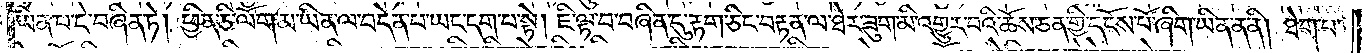ཡིན་པ་དེ་བཞིན་ཏེ། ཕྱིན་ཅི་ལོག་མ་ཡིན་ལ་བདེན་པ་ཡང་དག་པ་སྟེ། ཇི་ལྟ་བ་བཞིན་དུ་རྟག་ཅིང་བརྟན་ལ་ཐེར་ཟུག་མི་འགྱུར་བའི་ཆོས་ཅན་གྱི་དངོས་པོ་ཞིག་ཡིན་ན་ནི། ཐེག་པ་
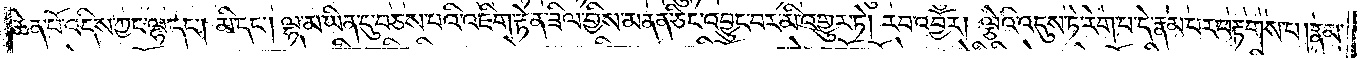ཆེན་པོ་འདིས་ཀྱང་ལྷ་དང༌། མི་དང༌། ལྷ་མ་ཡིན་དུ་བཅས་པའི་འཇིག་རྟེན་ཟིལ་གྱིས་མནན་ཅིང་འབྱུང་བར་མི་འགྱུར་ཏེ། རབ་འབྱོར། ལྕེའི་འདུས་ཏེ་རེག་པ་དེ་རྣམ་པར་བརྟགས་པ། རྣམ་
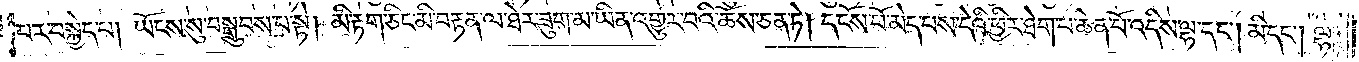པར་བསྐྱེད་པ། ཡོངས་སུ་བསྒྲུབས་པ་སྟེ། མི་རྟག་ཅིང་མི་བརྟན་ལ་ཐེར་ཟུག་མ་ཡིན་འགྱུར་པའི་ཆོས་ཅན་ཏེ་དངོས་པོ་མེད་པས་དེའི་ཕྱིར་ཐེག་པ་ཆེན་པོ་འདིས་ལྷ་དང༌། མི་དང༌། ལྷ་
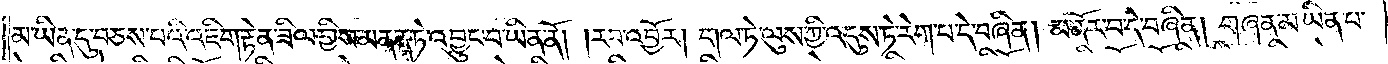མ་ཡིན་དུ་བཅས་པའི་འཇིག་རྟེན་ཟིལ་གྱིས་མནན་ཏེ་འབྱུང་བ་ཡིན་ནོ། །རབ་འབྱོར། གལ་ཏེ་ལུས་ཀྱི་འདུས་ཏེ་རེག་པ་དེ་བཞིན། མ་ནོར་བ་དེ་བཞིན། གཞན་མ་ཡིན་པ་
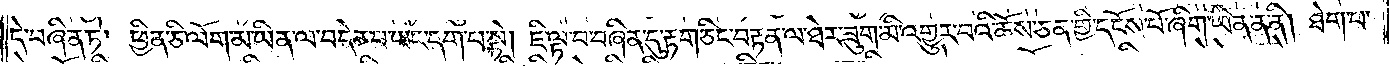དེ་བཞིན་ཏེ། ཕྱིན་ཅི་ལོག་མ་ཡིན་ལ་བདེན་པ་ཡང་དག་པ་སྟེ། ཇི་ལྟ་བ་བཞིན་དུ་རྟག་ཅིང་བརྟན་ལ་ཐེར་ཟུག་མི་འགྱུར་བའི་ཆོས་ཅན་གྱི་དངོས་པོ་ཞིག་ཡིན་ན་ནི། ཐེག་པ་
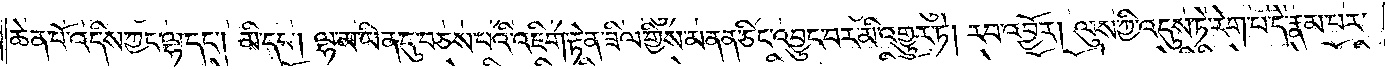ཆེན་པོ་འདིས་ཀྱང་ལྷ་དང༌། མི་དང༌། ལྷ་མ་ཡིན་དུ་བཅས་པའི་འཇིག་རྟེན་ཟིལ་གྱིས་མནན་ཅིང་འབྱུང་བར་མི་འགྱུར་ཏེ། རབ་འབྱོར། ལུས་ཀྱི་འདུས་ཏེ་རེག་པ་དེ་རྣམ་པར་
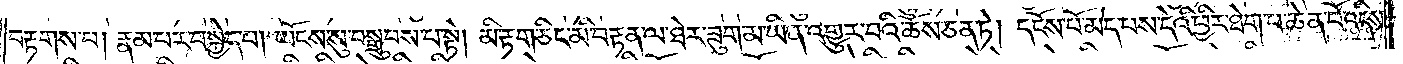བརྟགས་པ། རྣམ་པར་བསྐྱེད་པ། ཡོངས་སུ་བསྒྲུབས་པ་སྟེ། མི་རྟག་ཅིང་མི་བརྟན་ལ་ཐེར་ཟུག་མ་ཡིན་འགྱུར་བའི་ཆོས་ཅན་ཏེ། དངོས་པོ་མེད་པས་དེའི་ཕྱིར་ཐེག་པ་ཆེན་པོ་འདིས་
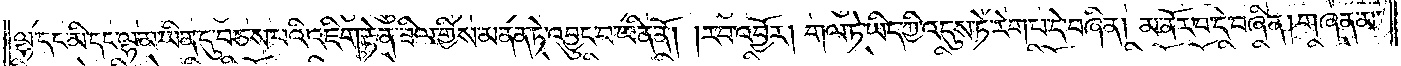ལྷ་དང་མི་དང་ལྷ་མ་ཡིན་དུ་བཅས་པའི་འཇིག་རྟེན་ཟིལ་གྱིས་མནན་ཏེ་འབྱུང་བ་ཡིན་ནོ། །རབ་འབྱོར། གལ་ཏེ་ཡིད་ཀྱི་འདུས་ཏེ་རེག་པར་དེ་བཞིན། མ་ནོར་བ་དེ་བཞིན། གཞན་མ་
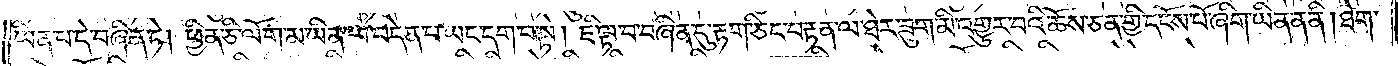ཡིན་པ་དེ་བཞིན་ཏེ། ཕྱིན་ཅི་ལོག་མ་ཡིན་ལ་བདེན་པ་ཡང་དག་པ་སྟེ། ཇི་ལྟ་བ་བཞིན་དུ་རྟག་ཅིང་བརྟན་ལ་ཐེར་ཟུག་མི་འགྱུར་བའི་ཆོས་ཅན་གྱི་དངོས་པོ་ཞིག་ཡིན་ན་ནི། ཐེག་
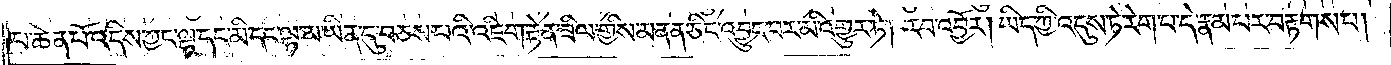པ་ཆེན་པོ་འདིས་ཀྱང་ལྷ་དང་མི་དང་ལྷ་མ་ཡིན་དུ་བཅས་པའི་འཇིག་རྟེན་ཟིལ་གྱིས་མནན་ཅིང་འབྱུང་བར་མི་འགྱུར་ཏེ། རབ་འབྱོར། ཡིད་ཀྱི་འདུས་ཏེ་རེག་པ་དེ་རྣམ་པར་བརྟགས་པ།
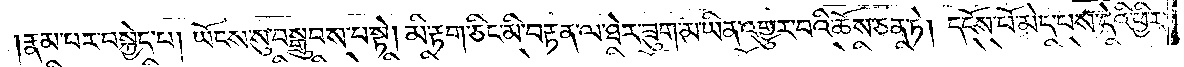རྣམ་པར་བསྐྱེད་པ། ཡོངས་སུ་བསྒྲུབས་པ་སྟེ། མི་རྟག་ཅིང་མི་བརྟན་ལ་ཐེར་ཟུག་མ་ཡིན་འགྱུར་བའི་ཆོས་ཅན་ཏེ། དངོས་པོ་མེད་པས་དེའི་ཕྱིར་
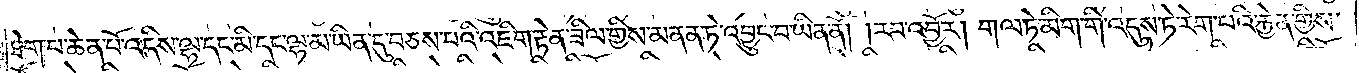ཐེག་པ་ཆེན་པོ་འདིས་ལྷ་དང་མི་དང་ལྷ་མ་ཡིན་དུ་བཅས་པའི་འཇིག་རྟེན་ཟིལ་གྱིས་མནན་ཏེ་འབྱུང་བ་ཡིན་ནོ། །རབ་འབྱོར། གལ་ཏེ་མིག་གི་འདུས་ཏེ་རེག་པའི་རྐྱེན་གྱིས་
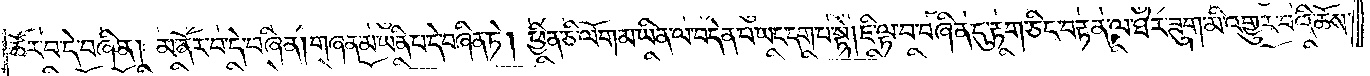ཚོར་བ་དེ་བཞིན། མ་ནོར་བ་དེ་བཞིན། གཞན་མ་ཡིན་པ་དེ་བཞིན་ཏེ། ཕྱིན་ཅི་ལོག་མ་ཡིན་ལ་བདེན་པ་ཡང་དག་པ་སྟེ། ཇི་ལྟ་བ་བཞིན་དུ་རྟག་ཅིང་བརྟན་ལ་ཐེར་ཟུག་མི་འགྱུར་བའི་ཆོས་
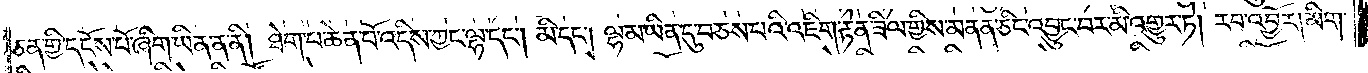ཅན་གྱི་དངོས་པོ་ཞིག་ཡིན་ན་ནི། ཐེག་པ་ཆེན་པོ་འདིས་ཀྱང་ལྷ་དང༌། མི་དང༌། ལྷ་མ་ཡིན་དུ་བཅས་པའི་འཇིག་རྟེན་ཟིལ་གྱིས་མནན་ཅིང་འབྱུང་བར་མི་འགྱུར་ཏེ། རབ་འབྱོར། མིག་
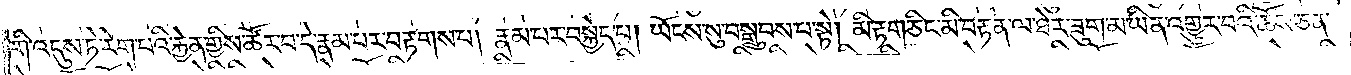གི་འདུས་ཏེ་རེག་པའི་རྐྱེན་གྱིས་ཚོར་བ་དེ་རྣམ་པར་བརྟགས་པ། རྣམ་པར་བསྐྱེད་པ། ཡོངས་སུ་བསྒྲུབས་པ་སྟེ། མི་རྟག་ཅིང་མི་བརྟན་ལ་ཐེར་ཟུག་མ་ཡིན་འགྱུར་བའི་ཆོས་ཅན་
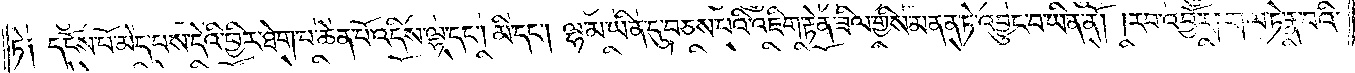ཏེ། དངོས་པོ་མེད་པས་དེའི་ཕྱིར་ཐེག་པ་ཆེན་པོ་འདིས་ལྷ་དང་མི་དང༌། ལྷ་མ་ཡིན་དུ་བཅས་པའི་འཇིག་རྟེན་ཟིལ་གྱིས་མནན་ཏེ་འབྱུང་བ་ཡིན་ནོ། །རབ་འབྱོར། གལ་ཏེ་རྣ་བའི་
